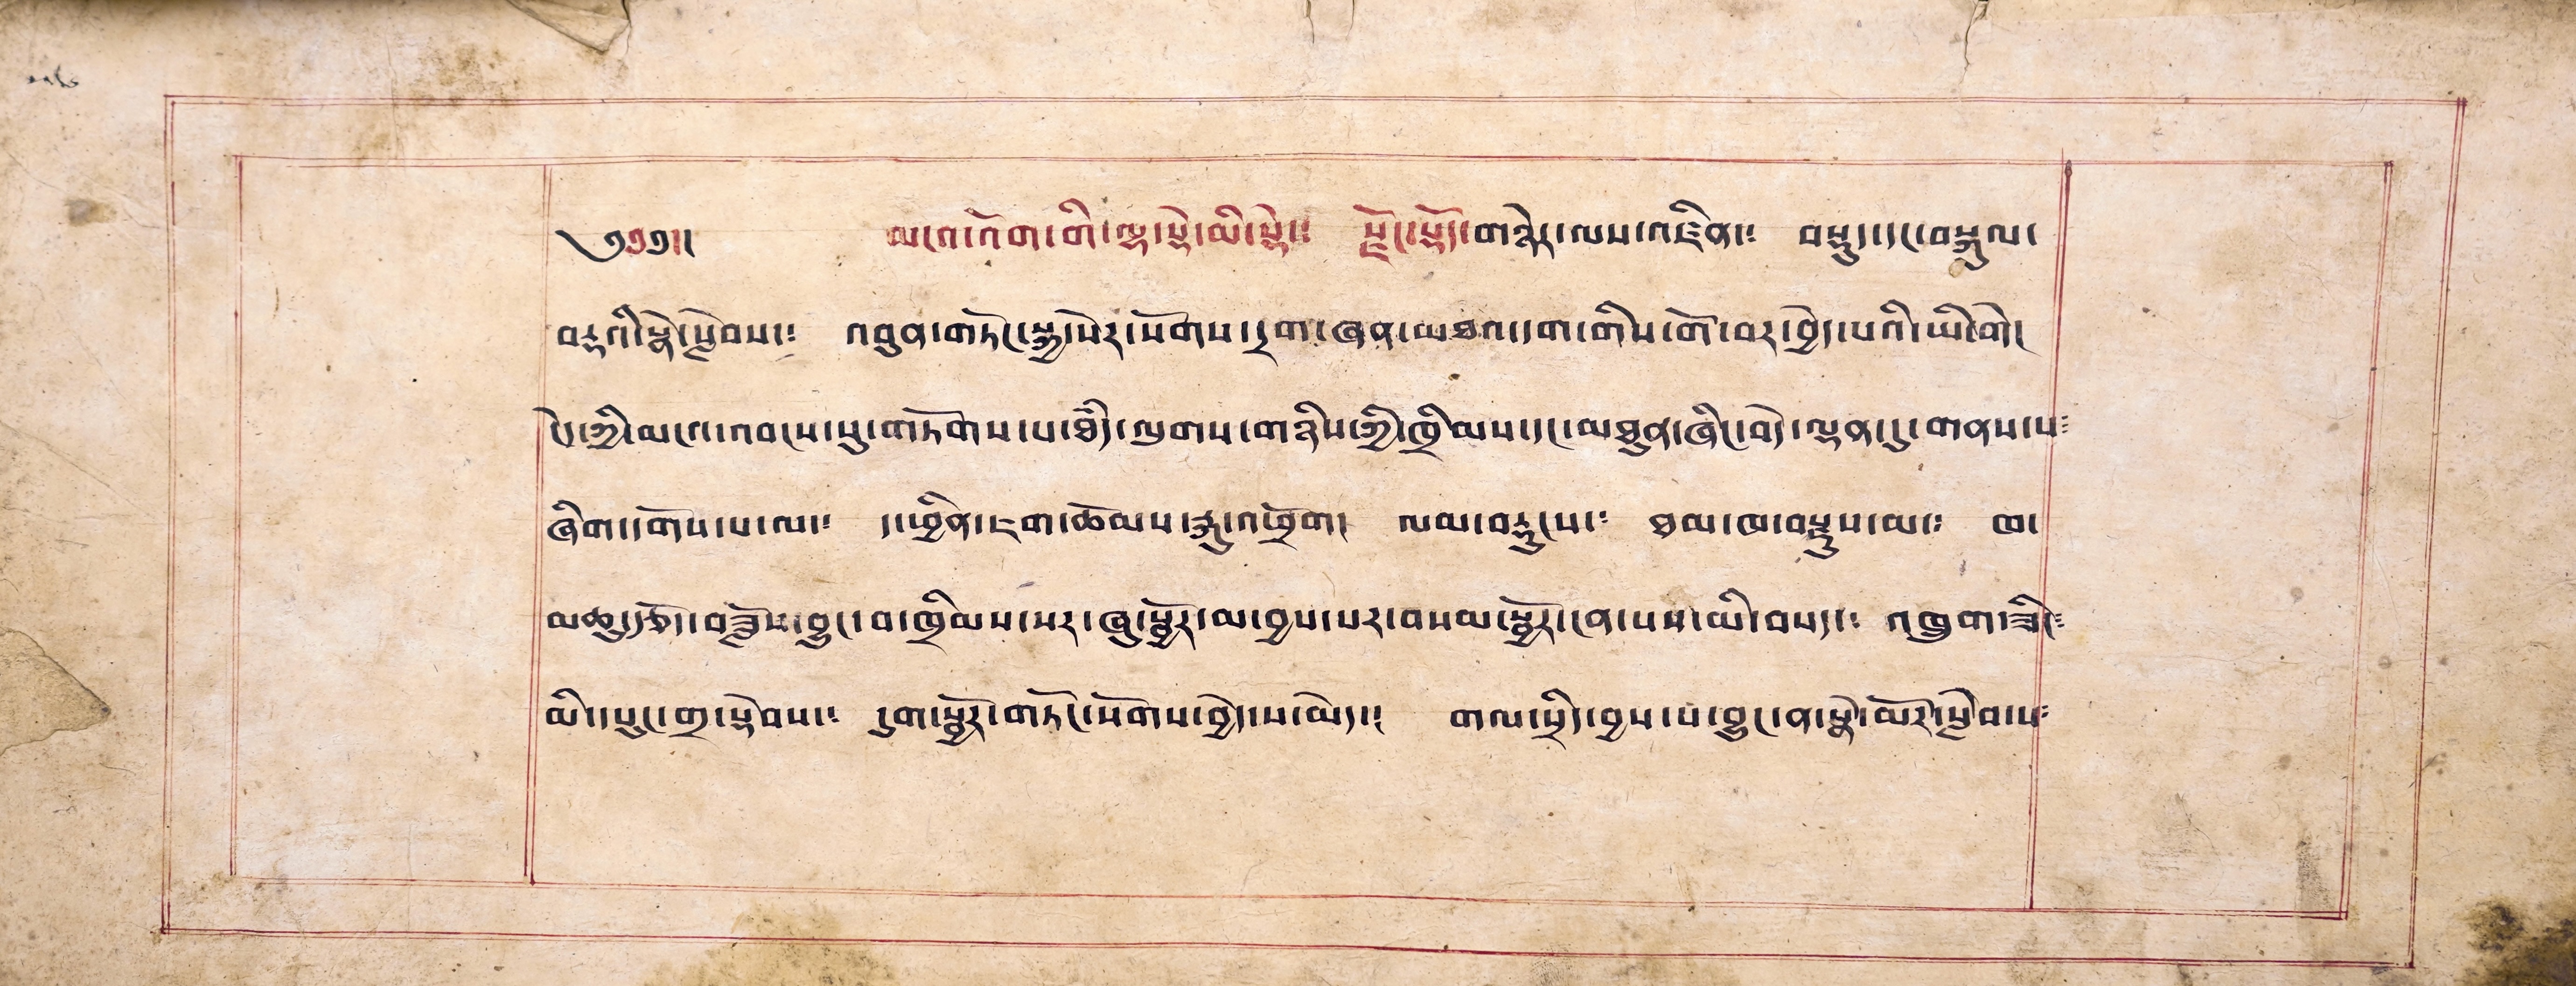༄༅༅།། མངའ་འོག་གི་ལྷ་སྡེ་མི་སྡེ། རྫོང་སྟོད་གཉེར་ལས་འཛིན་༴ བསྡུད་དང་བསྐུལ་
བརྡའི་སྣེ་སླེབས་༴ འབུན་གཏོང་སྐྱ་སེར་སོགས་དྲག་ཞན་མཐའ་དག་གིས་གོ་བར་བྱེད་པའི་ཡི་གེ།
ངེ་ཀྱི་མངའ་འབངས་སུ་གཏོགས་པ་ཐཾད་ལུགས་གཉིས་ཀྱི་ཁྲིམས་དང་མཐུན་ཞིང་བདེ་ལྡན་དུ་གནས་པ༴
ཞིག་དགོས་པ་ལ་༴ ད་ཕྱིན་ཇག་ཆོམས་རྐུ་འཕྲོག། ལམ་བརྡུངས་༴ ཐམ་ཁ་བསྡུས་མ་༴ ཁ་
མཆུ་རྩོད་བཟློས་བྱུང་བ་ཁྲིམས་སར་ཞུ་སྦྱོར་མ་བྱས་པར་བསམ་སྦྱོར་ངན་པས་མི་བསད་༴ འཁྲུག་ཟི་༴
མི་དཔུང་གྲ་སྡེབས་༴ དུག་སྦྱོར་གཏོང་སོགས་བྱེད་པ་མེད་༴ གལ་སྲིད་བྱས་པ་བྱུང་ན་སྣེ་མོར་སླེབ་ས༴
